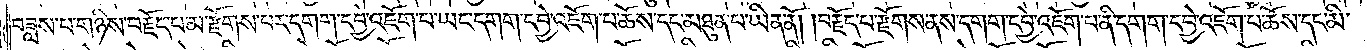བཟླས་པ་གཉིས་བརྗོད་པ་མ་རྫོགས་པར་དགག་དབྱེ་འཇོག་པ་ཡང་དགག་དབྱེ་འཇོག་པ་ཆོས་དང་མཐུན་པ་ཡིན་ནོ། །བརྗོད་པ་རྫོགས་ནས་དགག་དབྱེ་འཇོག་པ་ནི་དགག་དབྱེ་འཇོག་པ་ཆོས་དང་མི་
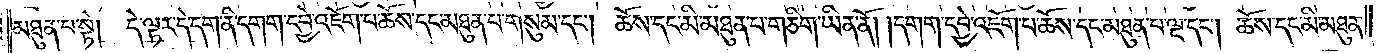མཐུན་པ་སྟེ། དེ་ལྟར་དེ་དག་ནི་དགག་དབྱེ་འཇོག་པ་ཆོས་དང་མཐུན་པ་གསུམ་དང༌། ཆོས་དང་མི་མཐུན་པ་གཅིག་ཡིན་ནོ། །དགག་དབྱེ་འཇོག་པ་ཆོས་དང་མཐུན་པ་ལྔ་དང༌། ཆོས་དང་མི་མཐུན་
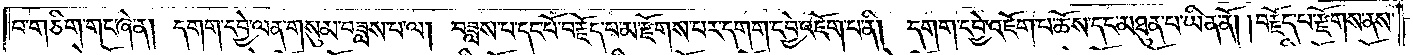པ་གཅིག་གང་ཞེ་ན། དགག་དབྱེ་ལན་གསུམ་བཟླས་པ་ལ། བཟླས་པ་དང་པོ་བརྗོད་པ་མ་རྫོགས་པར་དགག་དབྱེ་འཇོག་པ་ནི། དགག་དབྱེ་འཇོག་པ་ཆོས་དང་མཐུན་པ་ཡིན་ནོ། །བརྗོད་པ་རྫོགས་ནས་
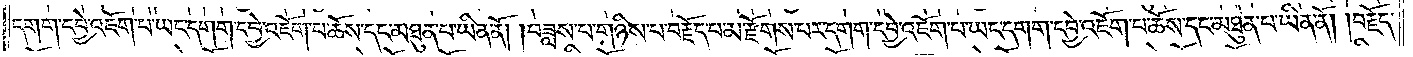དགག་དབྱེ་འཇོག་པ་ཡང་དགག་དབྱེ་འཇོག་པ་ཆོས་དང་མཐུན་པ་ཡིན་ནོ། །བཟླས་པ་གཉིས་པ་བརྗོད་པ་མ་རྫོགས་པར་དགག་དབྱེ་འཇོག་པ་ཡང་དགག་དབྱེ་འཇོག་པ་ཆོས་དང་མཐུན་པ་ཡིན་ནོ། །བརྗོད་
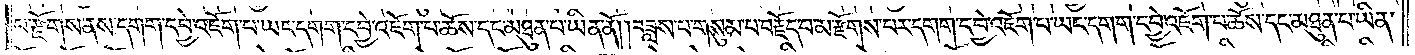པ་རྫོགས་ནས་དགག་དབྱེ་འཇོག་པ་ཡང་དགག་དབྱེ་འཇོག་པ་ཆོས་དང་མཐུན་པ་ཡིན་ནོ། །བཟླས་པ་གསུམ་པ་བརྗོད་པ་མ་རྫོགས་པར་དགག་དབྱེ་འཇོག་པ་ཡང་དགག་དབྱེ་འཇོག་པ་ཆོས་དང་མཐུན་པ་ཡིན་
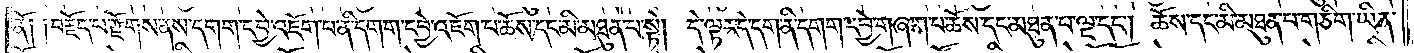ནོབ༑ ༑བརྗོད་པ་རྫོགས་ནས་དགག་དབྱེ་འཇོག་པ་ནི་དགག་དབྱེ་འཇོག་པ་ཆོས་དང་མི་མཐུན་པ་སྟེ། དེ་ལྟར་དེ་དག་ནི་དགག་དབྱེ་གཞག་པ་ཆོས་དང་མཐུན་པ་ལྔ་དང༌། ཆོས་དང་མི་མཐུན་པ་གཅིག་ཡིན་
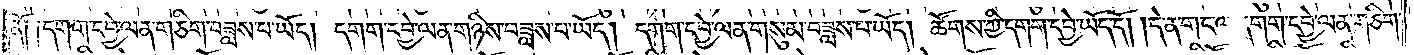ནོ། །དགག་དབྱེ་ལན་གཅིག་བཟླས་པ་ཡོད། དགག་དབྱེ་ལན་གཉིས་བཟླས་པ་ཡོད། དགག་དབྱེ་ལན་གསུམ་བཟླས་པ་ཡོད། ཚོགས་ཀྱི་དགག་དབྱེ་ཡོད་དོ། །དེ་ན་གང་ལ་དགག་དབྱེ་ལན་གཅིག་
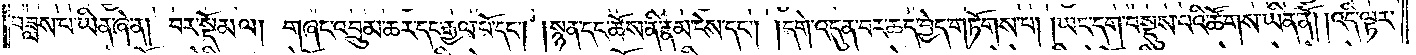བཟླས་པ་ཡིན་ཞེ་ན། བར་སྡོམ་ལ། གཞང་འབྲུམ་ཆར་དང་རྒྱལ་པོ་དང༌། །སྙན་དང་ཆོས་ནི་རྣམ་ངེས་དང༌། །དགེ་འདུན་བར་ཆད་བྱེད་གཏོགས་པ། །ཡང་དག་བསྡུས་པའི་ཚོགས་ཡིན་ནོ། །འདི་ལྟར་
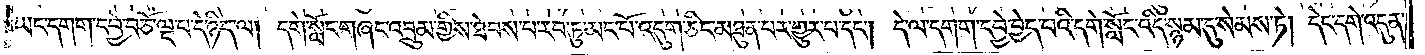ཡང་དགག་དབྱེ་བཅོ་ལྔ་པ་དེ་ཉིད་ལ། དགེ་སློང་གཞང་འབྲུམ་གྱིས་ཐེབས་པ་རབ་ཏུ་མང་པོ་འདུག་ཅིང་མཐུན་པར་གྱུར་པ་དང༌། དེ་ལ་དགག་དབྱེ་བྱེད་པའི་དགེ་སློང་འདི་སྙམ་དུ་སེམས་ཏེ། དེང་དགེ་འདུན་
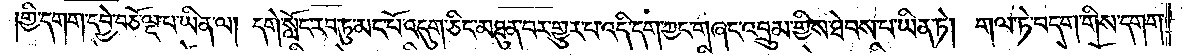གྱི་དགག་དབྱེ་བཅོ་ལྔ་པ་ཡིན་ལ། དགེ་སློང་རབ་ཏུ་མང་པོ་འདུག་ཅིང་མཐུན་པར་གྱུར་པ་འདི་དག་ཀྱང་གཞང་འབྲུམ་གྱིས་ཐེབས་པ་ཡིན་ཏེ། གལ་ཏེ་བདག་གིས་དགག་
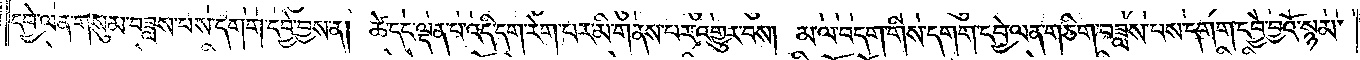དབྱེ་ལན་གསུམ་བཟླས་པས་དགག་དབྱེ་བྱས་ན། ཚེ་དང་ལྡན་པ་འདི་དག་རེག་པར་མི་གནས་པར་འགྱུར་བས། མ་ལ་བདག་གིས་དགག་དབྱེ་ལན་གཅིག་བཟླས་པས་དགག་དབྱེ་བྱའོ་སྙམ་
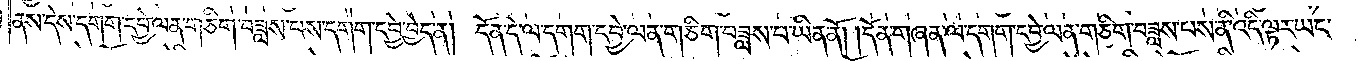ནས་དེས་དགག་དབྱེ་ལན་གཅིག་བཟླས་པས་དགག་དབྱེ་བྱེད་ན། དོན་དེ་ལ་དགག་དབྱེ་ལན་གཅིག་བཟླས་པ་ཡིན་ནོ། །དོན་གཞན་ལ་དགག་དབྱེ་ལན་གཅིག་བཟླས་པས་ནི་འདི་ལྟར་ཡང་
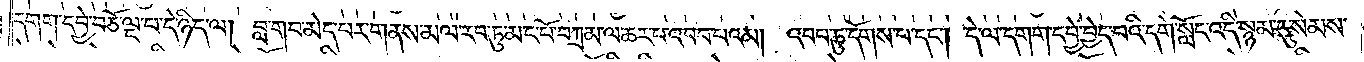དགག་དབྱེ་བཅོ་ལྔ་པ་དེ་ཉིད་ལ། བླ་གབ་མེད་པར་གནས་མལ་རབ་ཏུ་མང་པོ་བཀྲམ་ལ་ཆར་པ་འབབ་པའམ། འབབ་ཏུ་དོགས་པ་དང༌། དེ་ལ་དགག་དབྱེ་བྱེད་པའི་དགེ་སློང་འདི་སྙམ་དུ་སེམས་
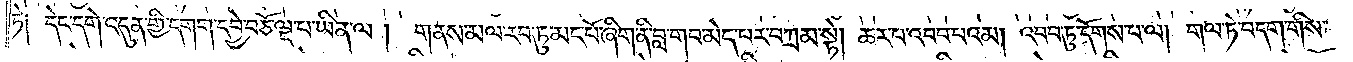ཏེ༑ དེང་དགེ་འདུན་གྱི་དགག་དབྱེ་བཅོ་ལྔ་པ་ཡིན་ལ། གནས་མལ་རབ་ཏུ་མང་པོ་ཞིག་ནི་བླ་གབ་མེད་པར་བཀྲམ་སྟེ། ཆར་པ་འབབ་པའམ། འབབ་ཏུ་དོགས་པ་ལ། གལ་ཏེ་བདག་གིས་
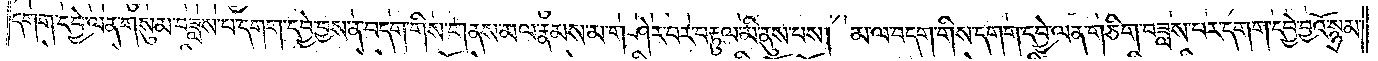དགག་དབྱེ་ལན་གསུམ་བཟླས་པ་དགག་དབྱེ་བྱས་ན་བདག་གིས་གནས་མལ་རྣམས་མ་གཤེར་བར་བརྟུལ་མི་ནུས་པས། མལ་བདག་གིས་དགག་དབྱེ་ལན་གཅིག་བཟླས་པ་དགག་དབྱེ་བྱའོ་སྙམ་
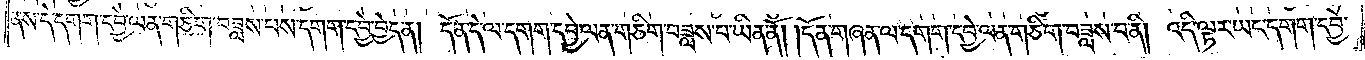ནས་དེ་དགག་དབྱེ་ལན་གཅིག་བཟླས་པས་དགག་དབྱེ་བྱེད་ན། དོན་དེ་ལ་དགག་དབྱེ་ལན་གཅིག་བཟླས་པ་ཡིན་ནོ། །དོན་གཞན་ལ་དགག་དབྱེ་ལན་གཅིག་བཟླས་པ་ནི། འདི་ལྟར་ཡང་དགག་དབྱེ་
